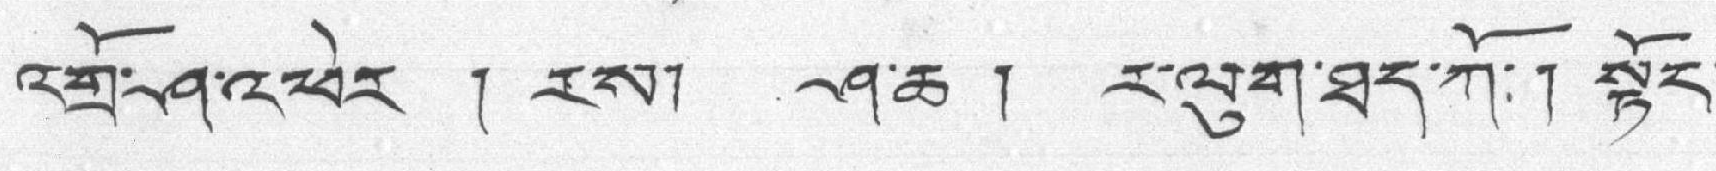འགྲོ་ཤ་འཕེར ། རས། ཤ་ཆ ། ར་ལུག་ཐད་ཀོ༴། སྟོང་
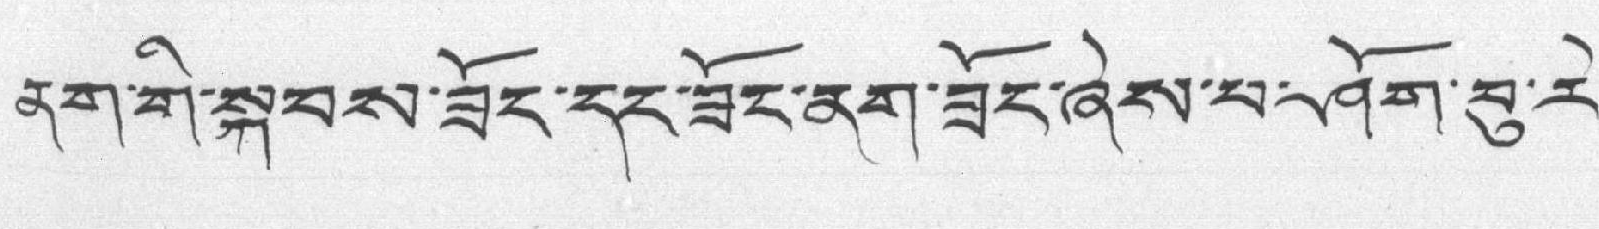ནག་གི་སྐབས་ཟོང་དང་ཟོང་ནག་ཟོང་ཞེས་པ་ཤོག་བུ་རེ་
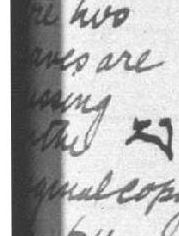here two leaves are missing from the original copy, 63–64
